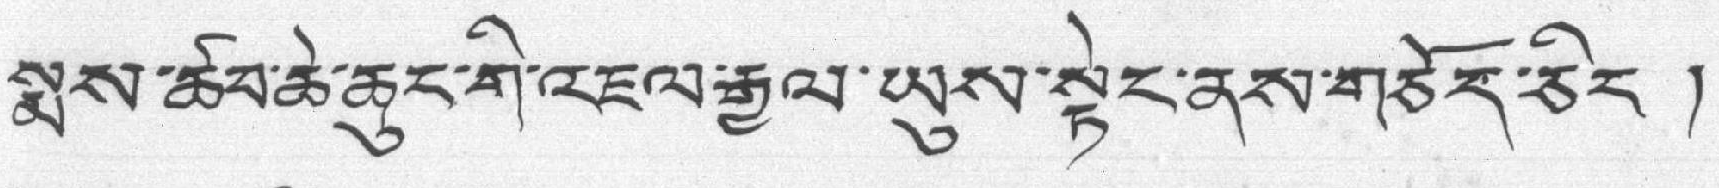སྨས་ཚབ་ཆེ་ཆུང་གི་འཇལ་རྒྱལ་ཡུས་སྟེང་ནས་གཅོད་ཅིང །
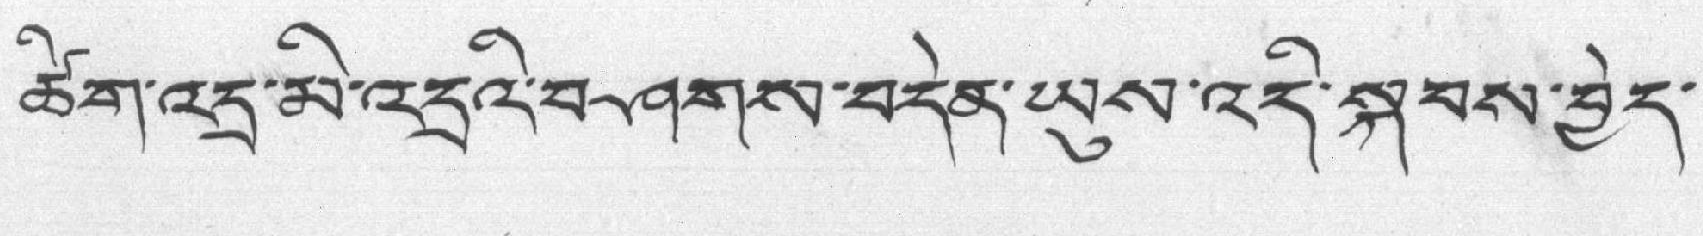ཚིག་འདྲ་མི་འདྲའི་བཤགས་བདེན་ཡུས་འདི་སྐབས་བྱེད་
